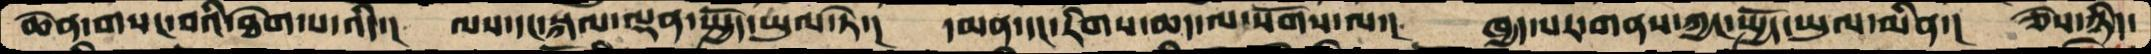ཆེན་གསང་བའི་ཐེག་པ་འདི་།  ལས་དང་སྐལ་ལྡན་སྤྱོད་ཡུལ་ཏེ་།  དམན་དང་རིགས་ཆད་ལ་སོགས་ལ་།  ཁྱད་པར་གནས་ཀྱང་སྤྱོད་ཡུལ་མིན་།  ཅེས་ཉིད་
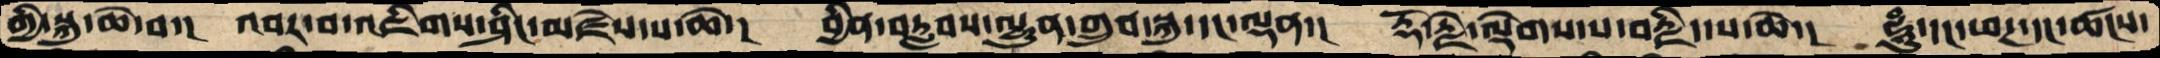གྱི་སྐུ་ཆེ་བ།  འབར་བ་འཇིགས་ཤིང་མཛེས་པ་ཆེ་།  བྱིན་བརླབས་ལྷུན་གྲུབ་སྐུ་དང་ལྡན་།།  རྡོ་རྗེ་ལྡེགས་པ་བརྗིད་པ་ཆེ་།  ཧཱུཾ་དང་ཕཊ་དང་ཚངས་
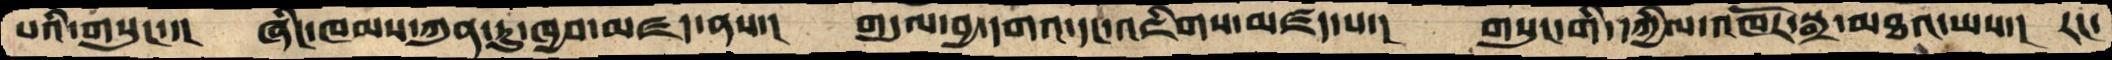པའི་གསུང་་།  ཞིང་ཁམས་ཀུན་ཏུ་ཁྱབ་མཛད་ནས་།  གདུལ་བྱ་དགའ་དང་འཇིགས་མཛད་པ་།  གསུང་གི་དཀྱིལ་འཁོར་སྒྲ་མཐའ་ཡས་།  རང་
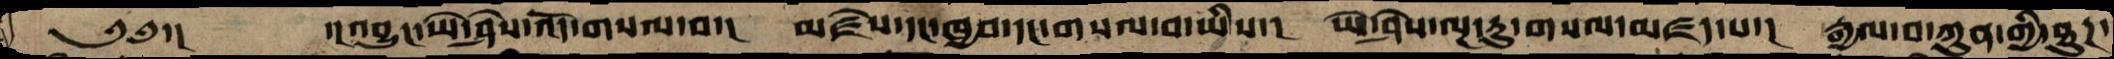༄༅་།    ་།འབྱུང་ཡེ་ཤེས་འོད་གསལ་བ་།  མཛེས་དང་ཁྱབ་དང་གསལ་བ་ཡིས་།  ཡེ་ཤེས་ལྔ་རུ་གསལ་མཛད་པ་།  རྒྱལ་བ་ཀུན་གྱི་ཐུཌ་
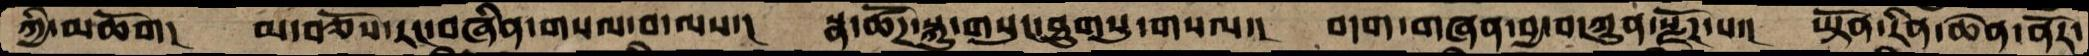ཀྱི་མཆོག།   མ་བཅོས་རང་བཞིན་གསལ་བ་ལས་།  སྣ་ཚོཌ་སྐུ་གསུང་ཐུགསུ་གསལ་།  བདག་གཞན་བྱ་བ་ཀུན་སྫོཌ་པ་།  ཡྟོན་རིན་ཆེན་ནོར་
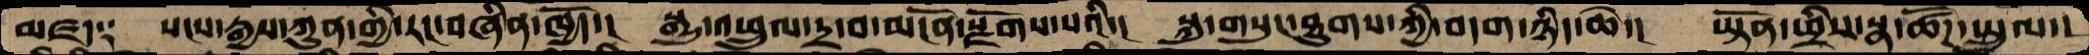མཛད༑  སངས་རྒྱས་ཀུན་གྱི་རང་བཞིན་ཁྱོད་།  སྒྱུ་འཕྲུལ་དྲ་བ་མངོན་སྫོགས་པའི་།  སྐུ་གསུང་ཐུགས་ཀྱི་བདག་ཉིད་ཆེ་།  ཡྟོན་ཕྲིས་སྣ་ཚོཌ་སྤྲུལ་།
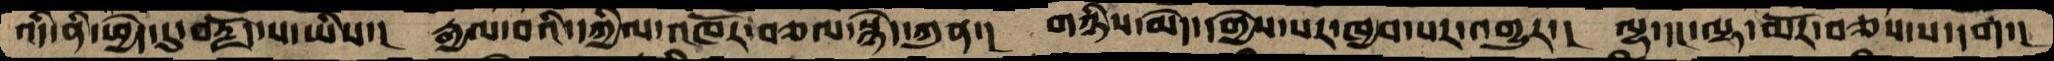འདི་ནི་ཕྱེད་དུ་བརྗོད་པ་ཡིས་།  རྒྱལ་བའི་དཀྱིལ་འཁོར་བཅལ་སྙེད་ཀུན་།  གཉིས་མེད་དགྱེས་པར་ཁྱབ་པར་འགྱུར་།  ལྷ་དང་ལྷ་མོར་བཅས་པ་དག་།
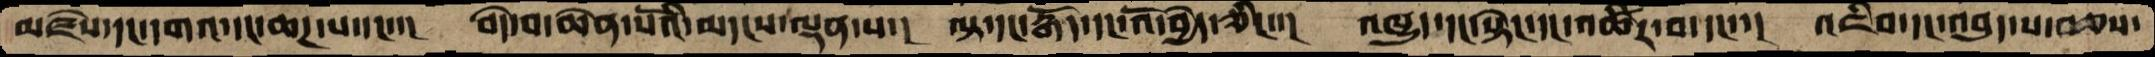མཛེས་དང་དགའ་དང་ཆཌ་པ་དང་་།  བདེ་བ་ཆེན་པོའི་མདངས་ལྡན་པ་།  ལྟ་དང་རྒོད་དང་འོ་བྱེད་ཅིང་་།  འཁྱུད་དང་སྟེང་དང་འཚིར་བ་དང་་།  འཇིབ་དང་འབུད་པ་བཅས་
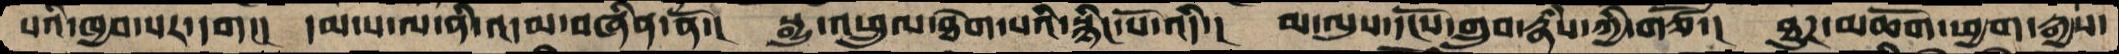པའི་ཁྱབ་པར་དག།།  དམ་པ་ལ་ནི་འདམ་བཞིན་ནོ་།   སྒྱུ་འཕྲུལ་ཐེག་པའི་སྙིང་པོ་འདི་།  མ་ལུས་དངོས་གྲུབ་རྣཾས་ཀྱི་གཙོ་།  ཐུཌ་མཆོག་ཕྱག་རྒྱས་
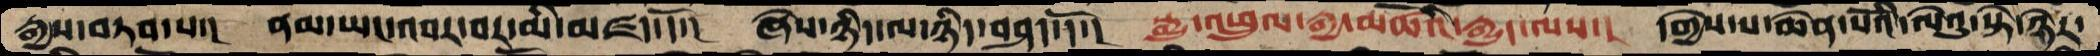རྒྱས་བཏབ་པ་།  ནམ་ཡང་འབར་བར་མི་མཛད་དོ་།  ཞེས་ཉིད་ལ་ཉིད་བཤད་དོ་།  སྒྱུ་འཕྲུལ་རྒྱ་མཚོའི་རྒྱུད་ལས་།  དགྱེས་པ་ཆེན་པོའི་ལེའུ་སྟེ་ཉེར་
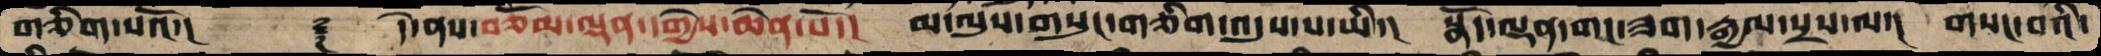གཅིག་པའོ་།   ࿑   དེ་ནས་བཅོམ་ལྡན་དགྱེས་ཆེན་པོ་།  མ་ལུས་གསུང་གཅིག་འདུས་པ་ཡི་།  སྣོད་ལྡན་གང་ཟག་རྒྱལ་སྲས་ལ་།  གསང་བའི་
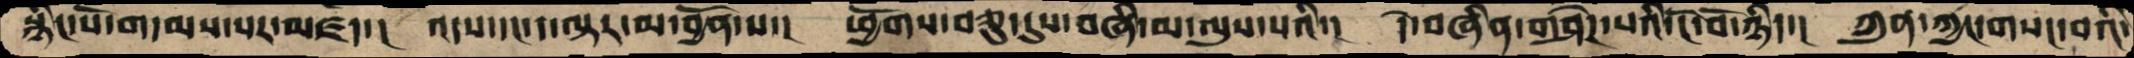སྙིང་པོ་གདམས་པར་མཛད་།  འདས་དང་ད་ལྟར་མ་བྱོན་པ་།   ཕྱོགས་བཅུ་དུས་བཞི་མ་ལུས་པའི་།  དེ་བཞིན་གཤེཌ་པའི་ངོ་བོ་ཉིད་།  ཀུན་ཀྱང་གསང་བའི་
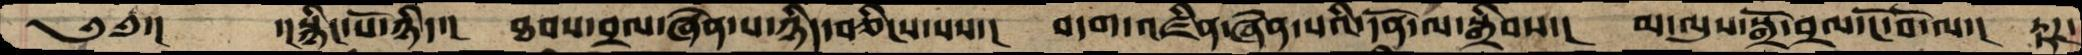༄༅་།    ་།སྙིང་པོ་ཉིད་།  ཐབས་བྲལ་ཞེན་པ་ཉིད་བཅིངས་པས་།  བདག་འཛིན་ཞེན་པའི་དོན་ལ་སྒྲིབས་།  མ་ལུས་སྒྲོ་བྲལ་ངོ་བོ་ལ་།  རྟཌ་
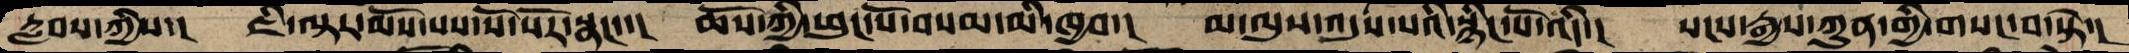རླབས་ཀྱིས་།  ཇི་ལྟར་མོས་པས་སོ་སོར་སྣང་་།  ཆོས་ཀྱི་ཕུང་པོ་བསམ་མི་ཁྱབ་།  མ་ལུས་འདུས་པའི་སྙིང་པོ་འདི་།   སངས་རྒྱས་ཀུན་གྱི་གསང་བ་སྟེ་།
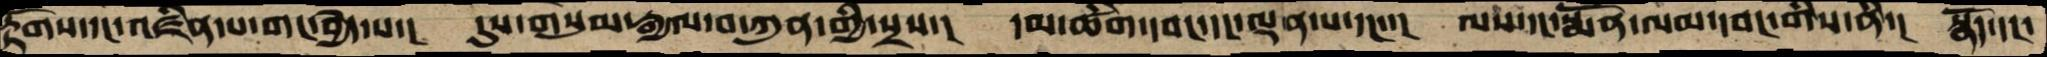རྟོགས་དང་འཛིན་པ་གང་བྱེད་པ་།  དུས་གསུམ་རྒྱལ་བ་ཀུན་གྱི་སྲས་།  དམ་ཚིག་དབང་དང་ལྡན་པ་དང་་།  ལས་དང་སྨོན་ལམ་དབང་གིས་ནི་།  སྣོད་དང་
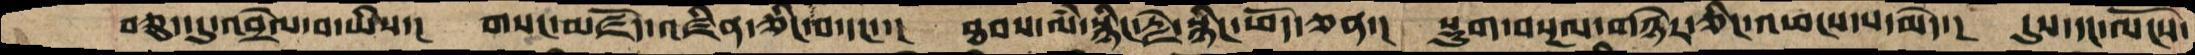བཅུད་དུ་འབྲེལ་བ་ཡིས་།  གསང་མཛོད་འཛིན་ཅིང་བ་དང་་།  ཐབས་ལཾ་སྙིང་རྗེ་སྙིང་ཕོད་ཅན་།  སྡུག་བསྔལ་གཉེར་ཅིང་འཕངས་པ་མེད་།  དུས་དང་ལོངས་
